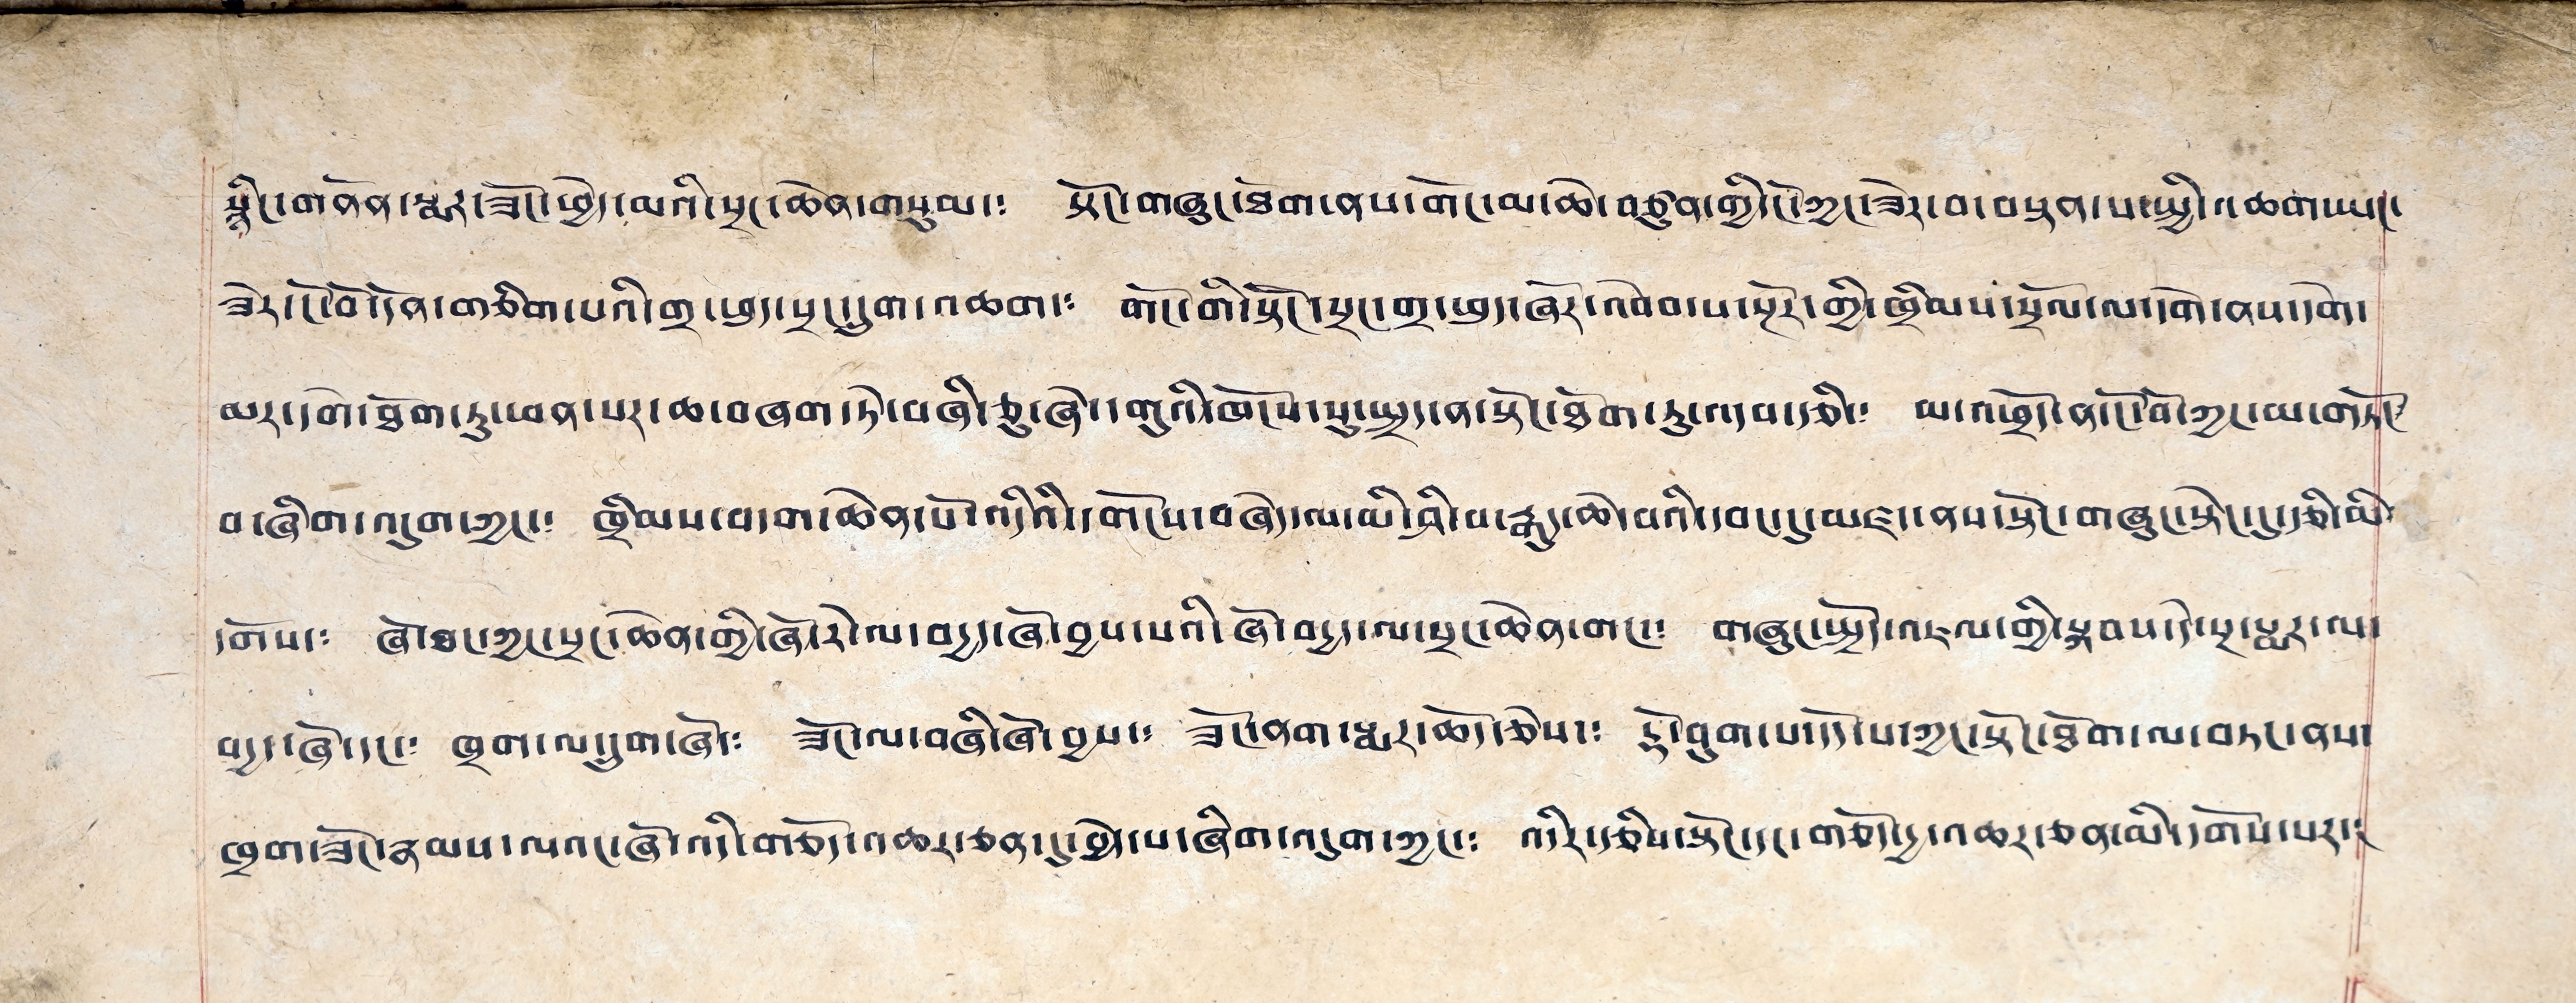སྙིང་གནོན་སྨར་ཟོང་ཕྱེད་མའི་སྲང་ཆེན་གསུམ་༴ སྟོང་གཞུང་ཐོག་ནས་གོང་མ་ཆེ་བཙུན་གྱི་ངོ་ཀྱང་ཟེར་བ་བསྟན་པ་སྤྱི་འཆག་ཡང་
ཟེར་ངོ་བོ་དོན་གཅིག་པའི་གྲ་ཕུད་སྲང་དྲུག་འཆག་༴ གོང་གི་སྟོང་སྲང་གྲ་ཕུད་ཞོར་འབེབ་པ་སྔོར་གྱི་ཁྲིམས་སྲོལ་ལ་དགེ་ནས་དགེ་
མར་དགེ་ཐོག་ཏུ་ཕན་པར་ཆ་བཞག་ཏེ་བཞི་ཅུ་ཞེ་དགུའི་ཁོངས་སུ་སྤྲད་ན་སྟོང་ཐོག་ཏུ་འདབ་རྩི་༴ མ་འཕྲོད་ན་ངོ་བོ་ཀྱང་མ་གཏོང་
བ་ཞིག་འདུག་ཀྱང་༴ ཁྲིམས་བདག་ཆེན་པོ་འདིའི་དགོངས་བཞེད་ལ་མི་ཤི་བ་རྒུད་ཆེ་བའི་དབང་དུ་མཛད་ནས་སྟོང་གཞུང་སྟེང་དུ་རྩི་མི༴
དགོས་༴ ཞོ་ཐང་ཀྱང་སྲང་ཆེན་གྱི་ཞོ་རེ་ལ་བདྱད་ཞོ་བྱས་པའི་ཞོ་བདྱད་ལ་སྲང་ཆེན་གང་༴ གཞུང་སྤྲོད་འཇལ་གྱི་སྐབས་དེ་སྔ་སྨར་ལ་
བདྱད་ཞོ་དང་༴ ཁྲག་ལ་དྲུག་ཞོ་༴ ཟོང་ལ་བཞི་ཞོ་བྱས་༴ ཟོང་ནག་སྨར་ཆོད་ཅེས་༴ རྡོ་བུག་པ་དོད་པ་ཀྱང་སྟོང་ཐོག་ལ་བཏང་ནས་
ཁྲག་ཟོང་རྣམས་ལའང་ཞོ་འདི་གཅོད་འཆར་ཅན་དུ་བྱེད་པ་ཞིག་འདུག་ཀྱང་༴ འདིར་རྩིས་སྟོང་དང་གགོ་དྱ་འཆར་ཅན་མི་དགོས་པར་༴
